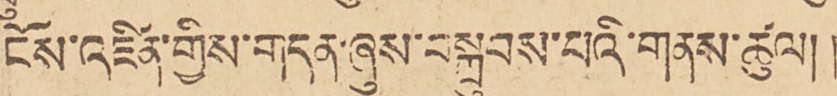ངོས་འཛིན་གྱིས་གདན་ཞུས་བསྐྲུབས་པའི་གནས་ཚུལ། །
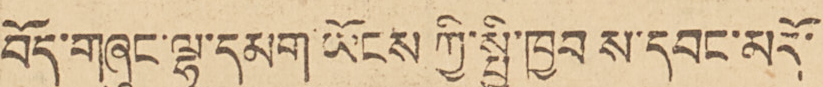བོད་གཞུང་ལྷ་དམག་ཡོངས ཀྱིས་སྤྱི་ཁྱབ ས་དབང་མདོ་
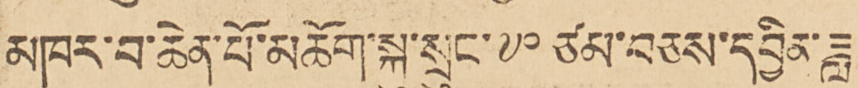མཁར་བ་ཆེན་པོ་མཆོག་སྐུ་སྲུང་ ༧༠ ཙམ་བཅས་དབྱིན་ཟླ
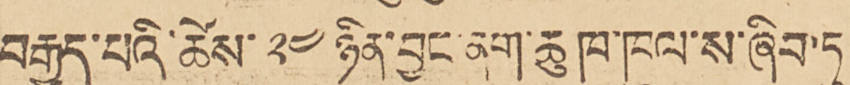བརྒྱད་པའི་ཚེས་ ༢༤ ཉིན་བྱང་ནག་ཆུ ཁ་ཁུལ་ས་ཞིབ་ཏུ་
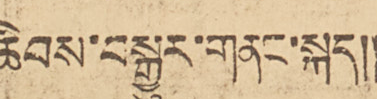ཆིབས་བསྒྱུར་གནང་སྐད།།
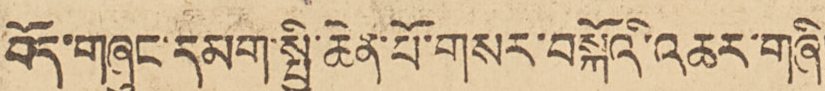བོད་གཞུང་དམག་སྤྱི་ཆོན་པོ་གསར་བསྐོའི་འཆར་གཞི།
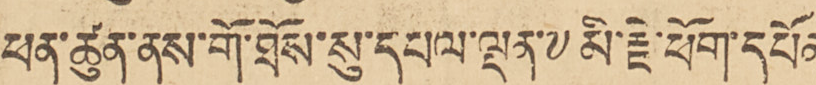ཕན་ཚུན་ནས་གོ་ཐོས་སུ་དཔལ་ལྡན་༸མི་རྗེ་ཕོག་དཔོན་
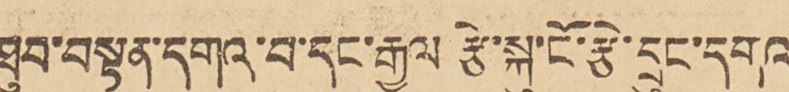ཐུབ་བསྟན་དགའ་བ་དང་རྒྱལ རྩེ་སྐུ་ངོ་རྩེ་དྲུང་དགའ་
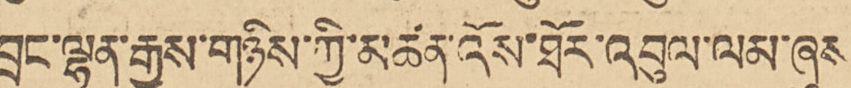བྲག་ལྷན་རྒྱས་གཉིས་ཀྱི་མཚན་འོས་ཐོར་འབུལ་ལམ་ཞུས
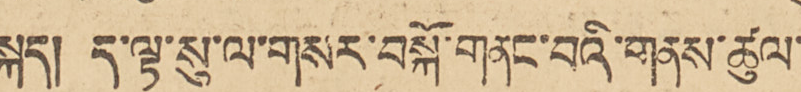སྐད། ད་ལྟ་སུ་ལ་གསར་བསྐོ་གནང་བའི་གནས་ཚུལ་
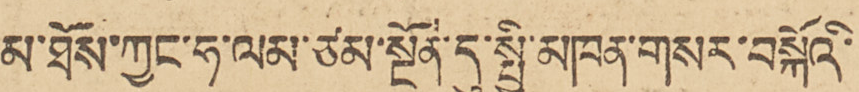མ་ཐོས་ཀྱང་ཧ་ལམ་ཙམ་སྔོན་དུ་སྤྱི་མཁན་གསར་བསྐོའི་
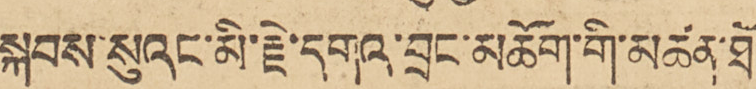སྐབས་སུའང་མི་རྗེ་དགའ་བྲང་མཆོག་གི་མཚན་ཐོ་
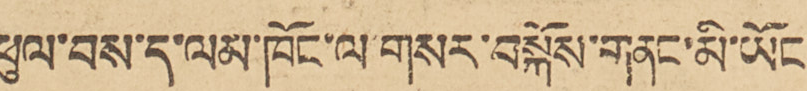ཕུལ་བས་ད་ལམ་ཁོང་ལ གསར་བསྐོས་གནང་མི་ཡོང་
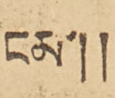ངམ་།།
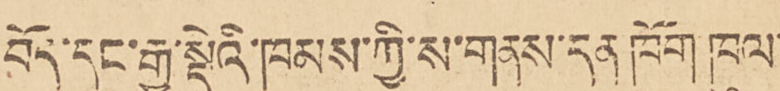བོད་དང་རྒྱ་སྡེའི་ཁམས་ཀྱི་ས་གནས་དན་ཁོག ཁུལ་
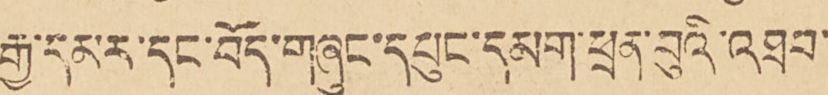རྒྱ་དམར་དང་བོད་གཞུང་དཔུང་དམག་ཕྲན་བུའི་འཐབ་
